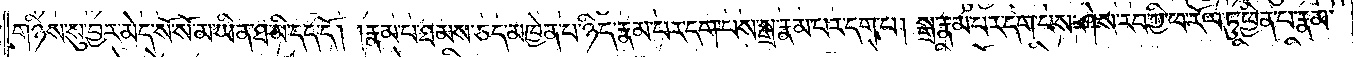གཉིས་སུ་བྱར་མེད་སོ་སོ་མ་ཡིན་ཐ་མི་དད་དོ། །རྣམ་པ་ཐམས་ཅད་མཁྱེན་པ་ཉིད་རྣམ་པར་དག་པས་སྒྲ་རྣམ་པར་དག་པ། སྒྲ་རྣམ་པར་དག་པས་ཤེས་རབ་ཀྱི་ཕ་རོལ་ཏུ་ཕྱིན་པ་རྣམ་
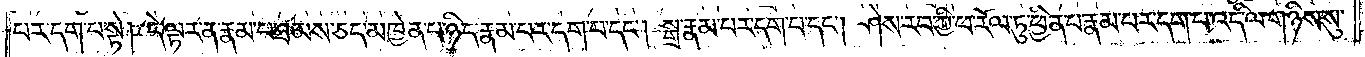པར་དག་པ་སྟེ། དེ་ལྟར་ན་རྣམ་པ་ཐམས་ཅད་མཁྱེན་པ་ཉིད་རྣམ་པར་དག་པ་དང༌། སྒྲ་རྣམ་པར་དག་པ་དང༌། ཤེས་རབ་ཀྱི་ཕ་རོལ་ཏུ་ཕྱིན་པ་རྣམ་པར་དག་པ་འདི་ལ་གཉིས་སུ་
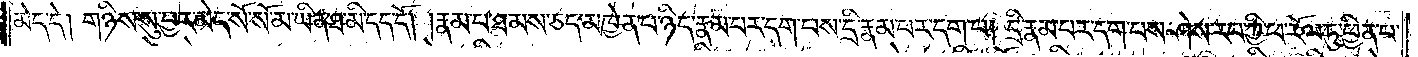མེད་དེ། གཉིས་སུ་བྱར་མེད་སོ་སོ་མ་ཡིན་ཐ་མི་དད་དོ། །རྣམ་པ་ཐམས་ཅད་མཁྱེན་པ་ཉིད་རྣམ་པར་དག་པས་དྲི་རྣམ་པར་དག་པ། དྲི་རྣམ་པར་དག་པས་ཤེས་རབ་ཀྱི་ཕ་རོལ་ཏུ་ཕྱིན་པ་
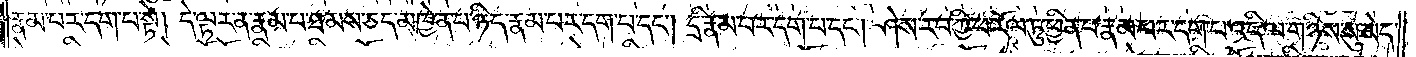རྣམ་པར་དག་པ་སྟེ། དེ་ལྟར་ན་རྣམ་པ་ཐམས་ཅད་མཁྱེན་པ་ཉིད་རྣམ་པར་དག་པ་དང༌། དྲི་རྣམ་པར་དག་པ་དང༌། ཤེས་རབ་ཀྱི་ཕ་རོལ་ཏུ་ཕྱིན་པ་རྣམ་པར་དག་པ་འདི་ལ་གཉིས་སུ་མེད་
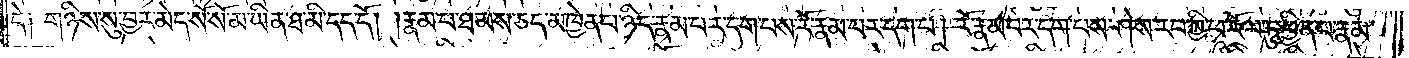དེ༑ གཉིས་སུ་བྱར་མེད་སོ་སོ་མ་ཡིན་ཐ་མི་དད་དོ། །རྣམ་པ་ཐམས་ཅད་མཁྱེན་པ་ཉིད་རྣམ་པར་དག་པས་རོ་རྣམ་པར་དག་པ། རོ་རྣམ་པར་དག་པས་ཤེས་རབ་ཀྱི་ཕ་རོལ་ཏུ་ཕྱིན་པ་རྣམ་
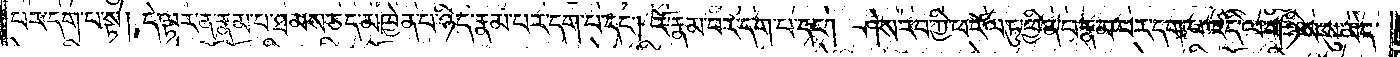པར་དག་པ་སྟེ། དེ་ལྟར་ན་རྣམ་པ་ཐམས་ཅད་མཁྱེན་པ་ཉིད་རྣམ་པར་དག་པ་དང༌། རོ་རྣམ་པར་དག་པ་དང༌། ཤེས་རབ་ཀྱི་ཕ་རོལ་ཏུ་ཕྱིན་པ་རྣམ་པར་དག་པ་འདི་ལ་གཉིས་སུ་མེད་
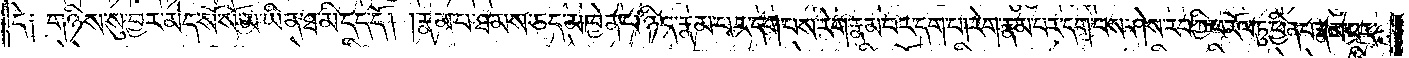དེ༑ གཉིས་སུ་བྱར་མེད་སོ་སོ་མ་ཡིན་ཐ་མི་དད་དོ། །རྣམ་པ་ཐམས་ཅད་མཁྱེན་པ་ཉིད་རྣམ་པར་དག་པས་རེག་རྣམ་པར་དག་པ། རེག་རྣམ་པར་དག་པས་ཤེས་རབ་ཀྱི་ཕ་རོལ་ཏུ་ཕྱིན་པ་རྣམ་པར་
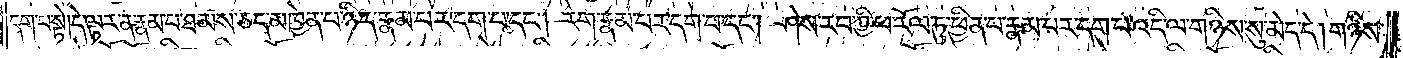དག་པ་སྟེ། དེ་ལྟར་ན་རྣམ་པ་ཐམས་ཅད་མཁྱེན་པ་ཉིད་རྣམ་པར་དག་པ་དང༌། རེག་རྣམ་པར་དག་པ་དང༌། ཤེས་རབ་ཀྱི་ཕ་རོལ་ཏུ་ཕྱིན་པ་རྣམ་པར་དག་པ་འདི་ལ་གཉིས་སུ་མེད་དེ། གཉིས་
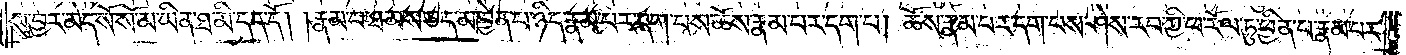སུ་བྱར་མེད་སོ་སོ་མ་ཡིན་ཐ་མི་དད་དོ། །རྣམ་པ་ཐམས་ཅད་མཁྱེན་པ་ཉིད་རྣམ་པར་དག་པས་ཆོས་རྣམ་པར་དག་པ། ཆོས་རྣམ་པར་དག་པས་ཤེས་རབ་ཀྱི་ཕ་རོལ་ཏུ་ཕྱིན་པ་རྣམ་པར་
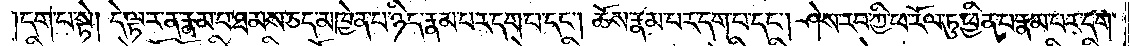དག་པ་སྟེ། དེ་ལྟར་ན་རྣམ་པ་ཐམས་ཅད་མཁྱེན་པ་ཉིད་རྣམ་པར་དག་པ་དང༌། ཆོས་རྣམ་པར་དག་པ་དང༌། ཤེས་རབ་ཀྱི་ཕ་རོལ་ཏུ་ཕྱིན་པ་རྣམ་པར་དག་
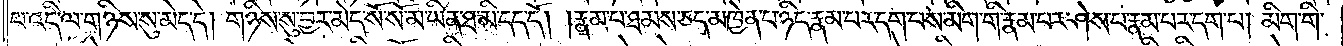པ་འདི་ལ་གཉིས་སུ་མེད་དེ། གཉིས་སུ་བྱར་མེད་སོ་སོ་མ་ཡིན་ཐ་མི་དད་དོ། །རྣམ་པ་ཐམས་ཅད་མཁྱེན་པ་ཉིད་རྣམ་པར་དག་པས་མིག་གི་རྣམ་པར་ཤེས་པ་རྣམ་པར་དག་པ། མིག་གི་
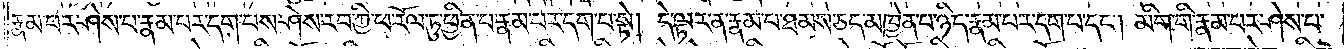རྣམ་པར་ཤེས་པ་རྣམ་པར་དག་པས་ཤེས་རབ་ཀྱི་ཕ་རོལ་ཏུ་ཕྱིན་པ་རྣམ་པར་དག་པ་སྟེ། དེ་ལྟར་ན་རྣམ་པ་ཐམས་ཅད་མཁྱེན་པ་ཉིད་རྣམ་པར་དག་པ་དང༌། མིག་གི་རྣམ་པར་ཤེས་པ་
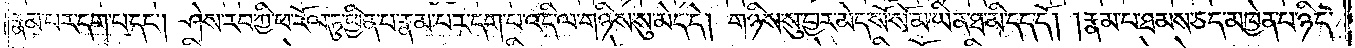རྣམ་པར་དག་པ་དང༌། ཤེས་རབ་ཀྱི་ཕ་རོལ་ཏུ་ཕྱིན་པ་རྣམ་པར་དག་པ་འདི་ལ་གཉིས་སུ་མེད་དེ། གཉིས་སུ་བྱར་མེད་སོ་སོ་མ་ཡིན་ཐ་མི་དད་དོ། །རྣམ་པ་ཐམས་ཅད་མཁྱེན་པ་ཉིད་
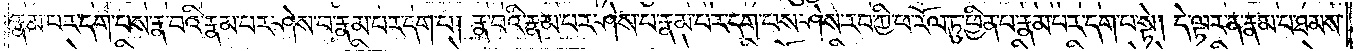རྣམ་པར་དག་པས་རྣ་བའི་རྣམ་པར་ཤེས་པ་རྣམ་པར་དག་པ། རྣ་བའི་རྣམ་པར་ཤེས་པ་རྣམ་པར་དག་པས་ཤེས་རབ་ཀྱི་ཕ་རོལ་ཏུ་ཕྱིན་པ་རྣམ་པར་དག་པ་སྟེ། དེ་ལྟར་ན་རྣམ་པ་ཐམས་
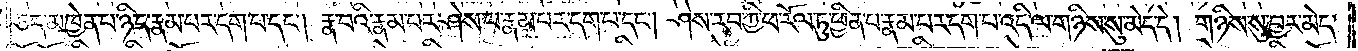ཅད་མཁྱེན་པ་ཉིད་རྣམ་པར་དག་པ་དང༌། རྣ་བའི་རྣམ་པར་ཤེས་པ་རྣམ་པར་དག་པ་དང༌། ཤེས་རབ་ཀྱི་ཕ་རོལ་ཏུ་ཕྱིན་པ་རྣམ་པར་དག་པ་འདི་ལ་གཉིས་སུ་མེད་དེ། གཉིས་སུ་བྱར་མེད་
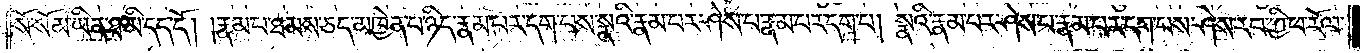སོ་སོ་མ་ཡིན་ཐ་མི་དད་དོ། །རྣམ་པ་ཐམས་ཅད་མཁྱེན་པ་ཉིད་རྣམ་པར་དག་པས་སྣའི་རྣམ་པར་ཤེས་པ་རྣམ་པར་དག་པ། སྣའི་རྣམ་པར་ཤེས་པ་རྣམ་པར་དག་པས་ཤེས་རབ་ཀྱི་ཕ་རོལ་
